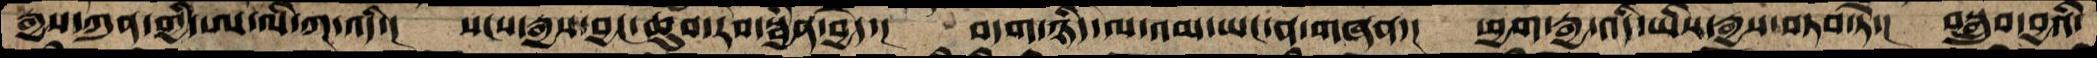རྒྱས་ཀུན་གྱི་ཨ་ལི་ཀ་འདི་།  སངས་རྒྱས་བྱང་ཆུབ་རབ་སྦྱིན་བྱེད་།  བདག་ཉིད་ལ་འམ་ཡང་ན་གཞན་།  ཕྱག་རྒྱ་འདི་ཡིས་རྒྱས་བཏབ་ཏེ་།  བསྒྲུབ་བྱའི་
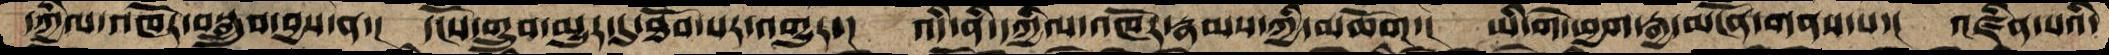དཀྱིལ་འཁོར་བསྒྲུབ་བྱས་ན་།   དངོས་གྲུབ་མྱུར་དུ་ཐོབ་པར་འགྱུར་།  འདི་ནི་དཀྱིལ་འཁོར་རྣམས་ཀྱི་མཆོག་།  ཡི་གེ་ཕྱག་རྒྱ་མངོན་གནས་པ་།  འཛིན་པའི་
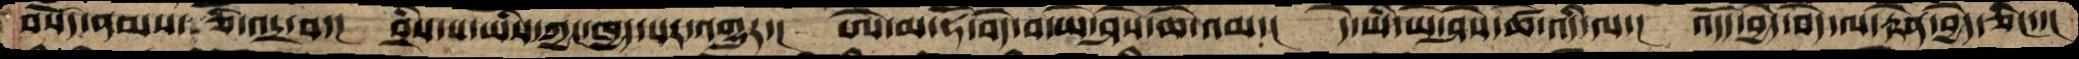བསོད་ནམས་ཅི་འདྲ་བ་།  བྲིས་པ་ཡིས་ཀྱང་ཁྱད་པར་འགྱུར་།  ཨེ་མ་ཧོ་བདེ་བ་ཡེ་ཤེས་ཆེ་འམ་།  དེ་ཡི་ཡེ་ཤེས་ཚེ་འདི་ལ་།  འདོད་བྱེད་བདེ་ལ་རྟེན་བྱེད་ཅིང་་།
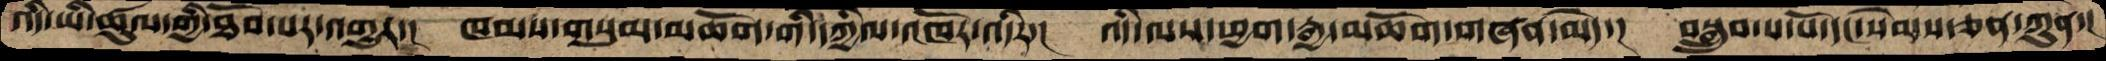འདི་ཡི་ཚུལ་གྱི་ཐོབ་པར་འགྱུར་།  ཁམས་གསུམ་མཆོག་གི་དཀྱིལ་འཁོར་འདིར་།  འདི་ལས་ཕྱག་རྒྱ་མཆོག་གཞན་མེད་།  བསྒྲུབ་པ་པོ་དང་སེམས་ཅན་ཀུན་།
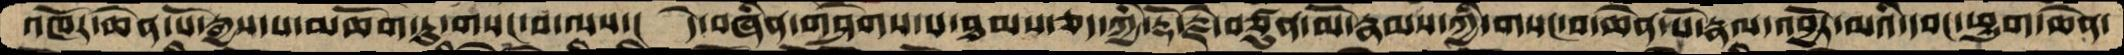འཁོར་ཆེན་པོ་རྒྱས་པ་མཆོག་ཏུ་གསང་བ་ལས་།  དེ་བཞིན་གཤེགས་པ་ཐམས་ཅད་ཀྱི་རྡོ་རྗེ་བཙུན་མོ་རྣམས་ཀྱི་གསང་བ་ཆེན་པོ་རྣལ་འབྱོར་མའི་དབང་ཕྱུག་ཆེན་
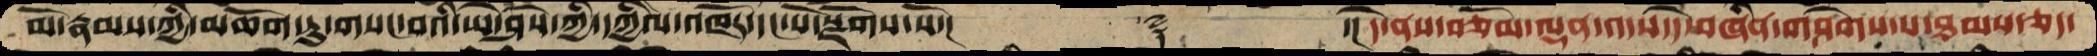མོ་རྣམས་ཀྱི་མཆོག་ཏུ་གསང་བའི་ཡེ་ཤེས་ཀྱི་དཀྱིལ་འཁོར་དང་པོ་སྫོགས་སོ་།      ࿑     ་།དེ་ནས་བཅོམ་ལྡན་འདས་དེ་བཞིན་གཤེགས་པ་ཐམས་ཅད་
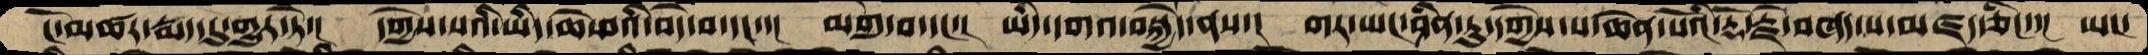ངོ་མཚར་རྨད་དུ་གྱུར་ཏེ་།   དགྱེས་པའི་ཡིད་ཆེ་བའི་བདེ་བ་དང་་།   མགུ་བ་དང་།   ཡིད་དགའ་བསྐྱེད་ནས་།   གར་ཡང་ཤིན་ཏུ་དགྱེས་པ་ཆེན་པོའི་རྡོ་རྗེ་བཞད་པ་མཛད་ཅིང་་།  ཡང་
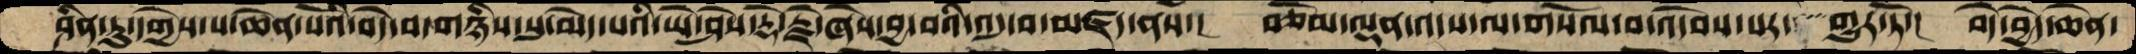ཤིན་ཏུ་དགྱེས་པ་ཆེན་པོའི་བདེ་བ་གཉིས་སུ་མེད་པའི་ཡེ་ཤེས་རྡོ་རྗེ་ཞེས་བྱ་བའི་འདུ་བ་མཛད་ནས་།  བཅོམ་ལྡན་འདས་ལ་གསོལ་བ་འདེབས་པར་ གྱུར་ཏོ་།  བདེ་བྱེད་ཆེན་
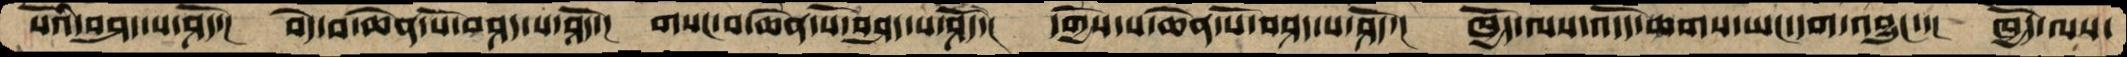པོའི་བཤད་པ་ཤོད་།   བདེ་བ་ཆེན་པོ་བཤད་པ་ཤོད་།   གསང་བ་ཆེན་པོ་བཤད་པ་ཤོད་།  དགྱེས་པ་ཆེན་པོ་བཤད་པ་ཤོད་།  ཁྱོད་ལས་འདོད་ཆགས་ཡང་དག་འབྱུང་་།  ཁྱོད་ལས་
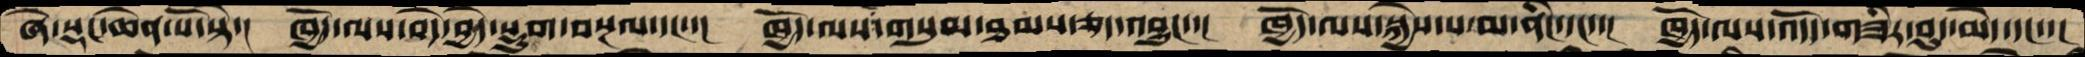ཞེ་སྡང་ཆེན་པོ་སྟེ་།  ཁྱོད་ལས་བདེ་བྱེད་སྡུག་བསྔལ་དང་་།  ཁྱོད་ལས་གསུམ་ཐམས་ཅད་འབྱུང་་།  ཁྱོད་ལས་སྐྱེས་པ་མ་ནིང་དང་་།  ཁྱོད་ལས་འདོད་གཟིར་བུད་མེད་དང་་།
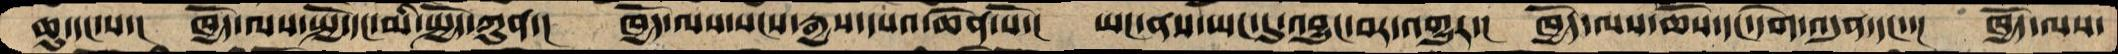ཆུ་དང་ས་།   ཁྱོད་ལས་སྤྱོ་དང་མི་སྤྱོད་ཀུན་།  ཁྱོད་ལས་སངས་རྒྱས་དཔའ་ཆེན་པོ་།  ཡང་ནས་ཡང་དུ་འབྱུང་བར་འགྱུར་།  ཁྱོད་ལས་ཆོས་དང་དགེ་འདུན་དང་་།  ཁྱོད་ལས་
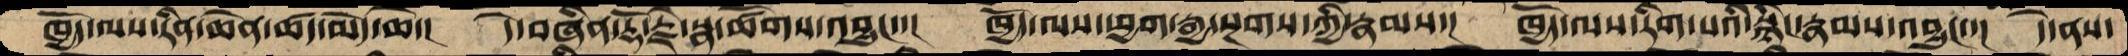ཁྱོད་ལས་རིན་ཆེན་ཚད་མེད་ཆེ་།  དེ་བཞིན་རྡོ་རྗེ་སྣ་ཚོགས་འབྱུང་་།  ཁྱོད་ལས་ཕྱག་རྒྱ་སྔགས་ཀྱི་རྣམས་།  ཁྱོད་ལས་རིག་པའི་སྙིང་རྣམས་འབྱུང་་།  དེ་ནས་
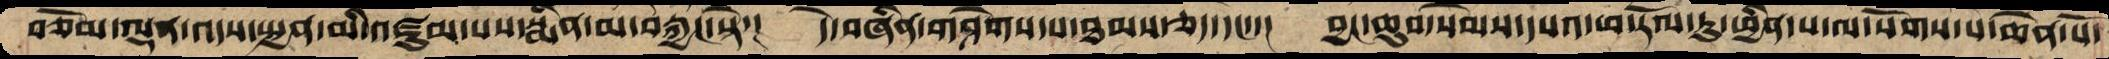བཅོམ་ལྡན་འདས་སྤྱན་མི་འཛུམ་པས་སྨིན་མ་བརྐྱང་སྟེ་།   དེ་བཞིན་གཤེགས་པ་ཐམས་ཅད་དང་་།  བྱང་ཆུབ་སེམས་དཔའ་ཕ་རོལ་ཏུ་ཕྱིན་པ་ལ་སོགས་པ་ཆེན་པོ་
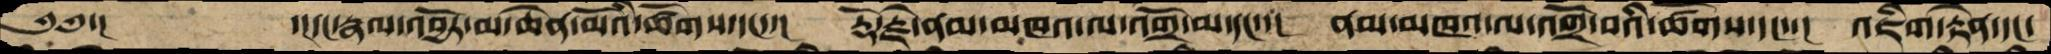༄༅་།         ་།དང་རྣལ་འབྱོར་མ་ཆེན་མོའི་ཚོགས་དང་་།  རྡོ་རྗེ་ནམ་མཁའ་ལ་འགྲོ་མ་དང་་།  ནམ་མཁའ་ལ་འགྲོ་བའི་ཚོགས་དང་་།  འཇིག་རྟེན་དང་
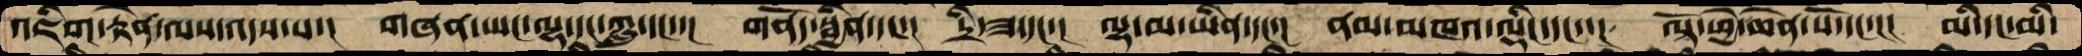འཇིག་རྟེན་ལས་འདས་པ་།   གཞན་ཡང་ལྷ་དང་ཀླུ་དང་་།  གནོད་སྦྱིན་དང་།  དྲི་ཟ་དང་།  ལྷ་མ་ཡིན་དང་།  ནམ་མཁའ་ལྡིང་དང་་།  ལྟོ་ཕྱེ་ཆེན་པོ་དང་་།  མི་དང་མི་
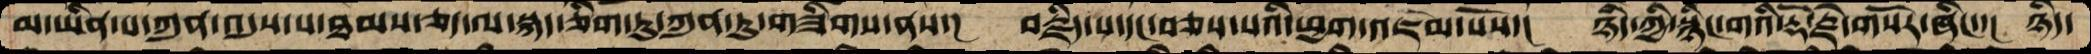མ་ཡིན་པ་ཀུན་འདུས་པ་ཐམས་ཅད་ལ་སྐད་ཅིག་ཏུ་ཀུན་ཏུ་གཟིགས་ནས་།  བརྗིད་པ་དང་བཅས་པའི་ཕྱག་འཇམ་པོས་།  ཉིད་ཀྱི་སྙིང་གའི་རྡོ་རྗེ་གསོར་ཞིང་་།  ཉིད་
